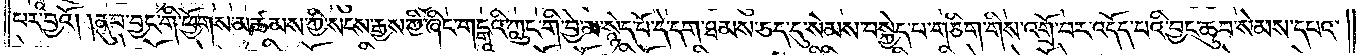པར་བྱའོ། །ནུབ་ཕྱོགས་ཀྱི་སངས་རྒྱས་ཀྱི་ཞིང་གངྒཱའི་ཀླུང་གི་བྱེ་མ་སྙེད་པོ་དེ་དག་ཐམས་ཅད་དུ་སེམས་བསྐྱེད་པ་གཅིག་གིས་འགྲོ་བར་འདོད་པའི་བྱང་ཆུབ་སེམས་དཔའ་
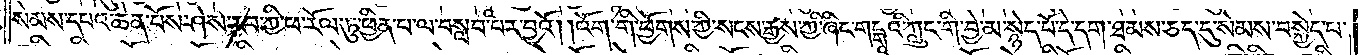སེམས་དཔའ་སེམས་དཔའ་ཆེན་པོས་ཤེས་རབ་ཀྱི་ཕ་རོལ་ཏུ་ཕྱིན་པ་ལ་བསླབ་པར་བྱའོ། །འོག་གི་ཕྱོགས་ཀྱི་སངས་རྒྱས་ཀྱི་ཞིང་གངྒཱའི་ཀླུང་གི་བྱེ་མ་སྙེད་པོ་དེ་དག་ཐམས་ཅད་དུ་སེམས་བསྐྱེད་པ་
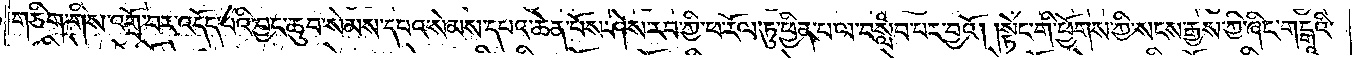གཅིག་གིས་འགྲོ་བར་འདོད་པའི་བྱང་ཆུབ་སེམས་དཔའ་སེམས་དཔའ་ཆེན་པོས་ཤེས་རབ་ཀྱི་ཕ་རོལ་ཏུ་ཕྱིན་པ་ལ་བསླབ་པར་བྱའོ། །སྟེང་གི་ཕྱོགས་ཀྱི་སངས་རྒྱས་ཀྱི་ཞིང་གངྒཱའི་
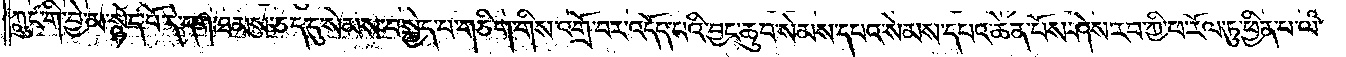ཀླུང་གི་བྱེ་མ་སྙེད་པོ་དེ་དག་ཐམས་ཅད་དུ་སེམས་བསྐྱེད་པ་གཅིག་གིས་འགྲོ་བར་འདོད་པའི་བྱང་ཆུབ་སེམས་དཔའ་སེམས་དཔའ་ཆེན་པོས་ཤེས་རབ་ཀྱི་ཕ་རོལ་ཏུ་ཕྱིན་པ་ལ་
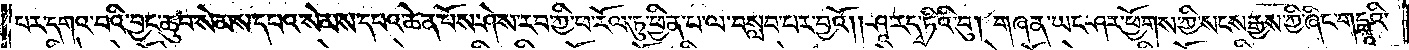པར་དགའ་བའི་བྱང་ཆུབ་སེམས་དཔའ་སེམས་དཔའ་ཆེན་པོས་ཤེས་རབ་ཀྱི་ཕ་རོལ་ཏུ་ཕྱིན་པ་ལ་བསླབ་པར་བྱའོ༎ ཤ་རདྭ་ཏིའི་བུ།  གཞན་ཡང་ཤར་ཕྱོགས་ཀྱི་སངས་རྒྱས་ཀྱི་ཞིང་གངྒའི་
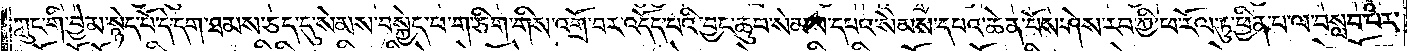ཀླུང་གི་བྱེ་མ་སྙེད་པོ་དེ་དག་ཐམས་ཅད་དུ་སེམས་བསྐྱེད་པ་གཅིག་གིས་འགྲོ་བར་འདོད་པའི་བྱང་ཆུབ་སེམས་དཔའ་སེམས་དཔའ་ཆེན་པོས་ཤེས་རབ་ཀྱི་ཕ་རོལ་ཏུ་ཕྱིན་པ་ལ་བསླབ་པར་
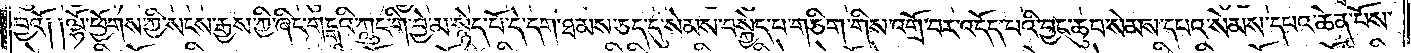བྱའོ༎ ལྷོ་ཕྱོགས་ཀྱི་སངས་རྒྱས་ཀྱི་ཞིང་གངྒཱའི་ཀླུང་གི་བྱེ་མ་སྙེད་པོ་དེ་དག་ཐམས་ཅད་དུ་སེམས་བསྐྱེད་པ་གཅིག་གིས་འགྲོ་བར་འདོད་པའི་བྱང་ཆུབ་སེམས་དཔའ་སེམས་དཔའ་ཆེན་པོས་
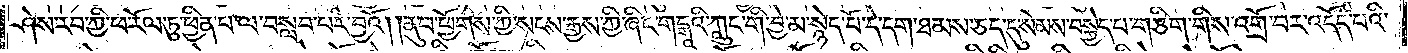ཤེས་རབ་ཀྱི་ཕ་རོལ་ཏུ་ཕྱིན་པ་ལ་བསླབ་པར་བྱའོ། །ནུབ་བྱང་གི་ཕྱོགས་མཚམས་ཀྱི་སངས་རྒྱས་ཀྱི་ཞིང་གངྒཱའི་ཀླུང་གི་བྱེ་མ་སྙེད་པོ་དེ་དག་ཐམས་ཅད་དུ་སེམས་བསྐྱེད་པ་གཅིག་གིས་འགྲོ་བར་འདོད་པའི་
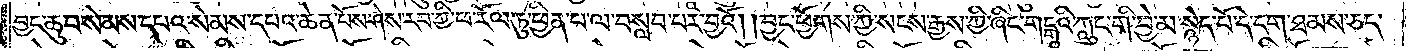བྱང་ཆུབ་སེམས་དཔའ་སེམས་དཔའ་ཆེན་པོས་ཤེས་རབ་ཀྱི་ཕ་རོལ་ཏུ་ཕྱིན་པ་ལ་བསླབ་པར་བྱའོ། །བྱང་ཕྱོགས་ཀྱི་སངས་རྒྱས་ཀྱི་ཞིང་གངྒཱའི་ཀླུང་གི་བྱེ་མ་སྙེད་པོ་དེ་དག་ཐམས་ཅད་
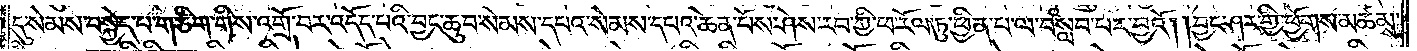དུ་སེམས་བསྐྱེད་པ་གཅིག་གིས་འགྲོ་བར་འདོད་པའི་བྱང་ཆུབ་སེམས་དཔའ་སེམས་དཔའ་ཆེན་པོས་ཤེས་རབ་ཀྱི་ཕ་རོལ་ཏུ་ཕྱིན་པ་ལ་བསླབ་པར་བྱའོ། ། བྱང་ཤར་གྱི་ཕྱོགས་མཚམས་
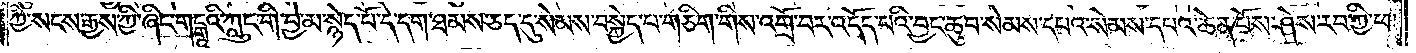ཀྱི་སངས་རྒྱས་ཀྱི་ཞིང་གངྒཱའི་ཀླུང་གི་བྱེ་མ་སྙེད་པོ་དེ་དག་ཐམས་ཅད་དུ་སེམས་བསྐྱེད་པ་གཅིག་གིས་འགྲོ་བར་འདོད་པའི་བྱང་ཆུབ་སེམས་དཔའ་སེམས་དཔའ་ཆེན་པོས་ཤེས་རབ་ཀྱི་ཕ་
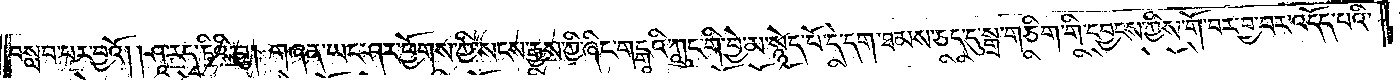བསླབ་པར་བྱའོ། །ཤཱ་ར་དྭ་ཏིའི་བུ། གཞན་ཡང་ཤར་ཕྱོགས་ཀྱི་སངས་རྒྱས་ཀྱི་ཞིང་གངྒཱའི་ཀླུང་གི་བྱེ་མ་སྙེད་པོ་དེ་དག་ཐམས་ཅད་དུ་སྒྲ་གཅིག་གི་དབྱངས་ཀྱིས་གོ་བར་བྱ་བར་འདོད་པའི་
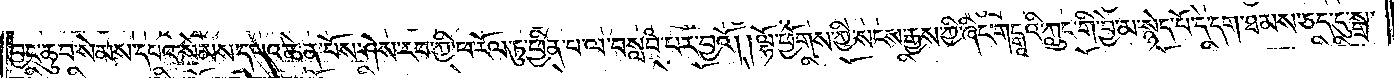བྱང་ཆུབ་སེམས་དཔའ་སེམས་དཔའ་ཆེན་པོས་ཤེས་རབ་ཀྱི་ཕ་རོལ་ཏུ་ཕྱིན་པ་ལ་བསླབ་པར་བྱའོ། །ལྷོ་ཕྱོགས་ཀྱི་སངས་རྒྱས་ཀྱི་ཞིང་གངྒཱའི་ཀླུང་གི་བྱེ་མ་སྙེད་པོ་དེ་དག་ཐམས་ཅད་དུ་སྒྲ་
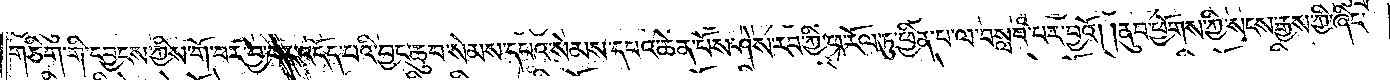གཅིག་གི་དབྱངས་ཀྱིས་གོ་བར་བྱ་བར་འདོད་པའི་བྱང་ཆུབ་སེམས་དཔའ་སེམས་དཔའ་ཆེན་པོས་ཤེས་རབ་ཀྱི་ཕ་རོལ་ཏུ་ཕྱིན་པ་ལ་བསླབ་པར་བྱའོ། །ནུབ་ཕྱོགས་ཀྱི་སངས་རྒྱས་ཀྱི་ཞིང་
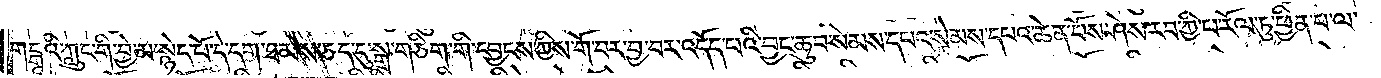གངྒཱའི་ཀླུང་གི་བྱེ་མ་སྙེད་པོ་དེ་དག་ཐམས་ཅད་དུ་སྒྲ་གཅིག་གི་དབྱངས་ཀྱིས་གོ་བར་བྱ་བར་འདོད་པའི་བྱང་ཆུབ་སེམས་དཔའ་སེམས་དཔའ་ཆེན་པོས་ཤེས་རབ་ཀྱི་ཕ་རོལ་ཏུ་ཕྱིན་པ་ལ་
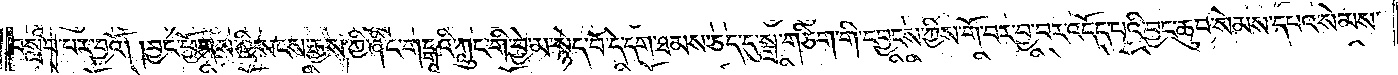བསླབ་པར་བྱའོ། །བྱང་ཕྱོགས་ཀྱི་སངས་རྒྱས་ཀྱི་ཞིང་གངྒཱའི་ཀླུང་གི་བྱེ་མ་སྙེད་པོ་དེ་དག་ཐམས་ཅད་དུ་སྒྲ་གཅིག་གི་དབྱངས་ཀྱིས་གོ་བར་བྱ་བར་འདོད་པའི་བྱང་ཆུབ་སེམས་དཔའ་སེམས་
